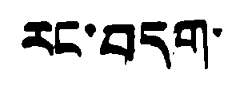རང་བདག་
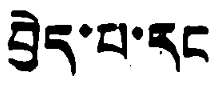བྱེད་པ་དང
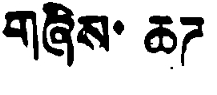གཞིས་ཆཌ
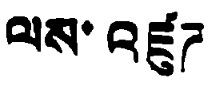ལས་འཛུཌ
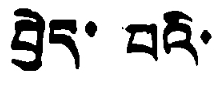བྱེད་པའི་
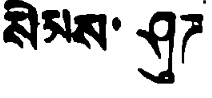སེམས་ཤུཌ
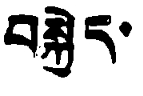བསྐྱེད་
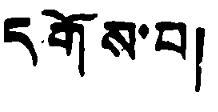དགོས་པ།
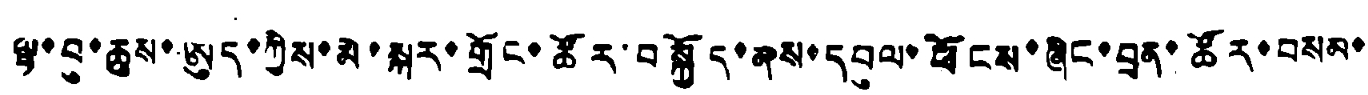ལྷ་བུ་ཆུས་ཨུད་ཀྱིས་མེ་སྐར་གྲོང་ཚོར་བསྐྱོད་ནས་དབུལ་ཕོངས་ཞིང་བྲན་ཚོར་བསམ་
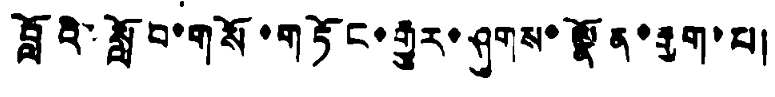བློའི་སློབ་གསོ་གཏོང་རྒྱུར་ཤུགས་སྣོན་རྒྱག་པ།
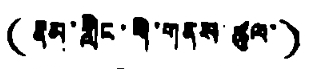(རྣམ་གླིང་གི་གནས་ཚུལ་)
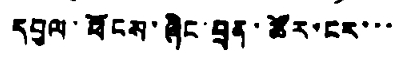དབུལ་ཕོངས་ཞིང་བྲན་ཚོར་ངར་་་
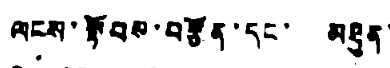ལངས་སྟོབས་བརྩོན་དང་། མཐུན་
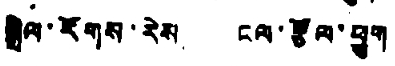སྒྲིལ་རོགས་རེས། ངལ་རྩོལ་ཕྱུག
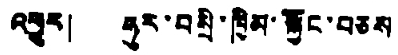འགྱུར། ཧུར་བསྲི་ཁྱིམ་སྐྱོང་བཅས
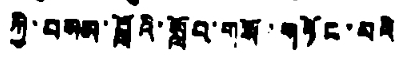ཀྱི་བསམ་བློའི་སློབ་གསོ་གཏོང་བའི
